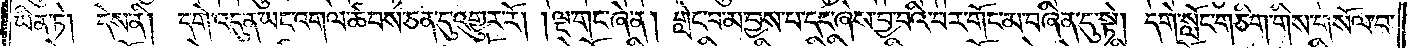ཡིན་ཏེ། དེས་ནི། དགེ་འདུན་ཡང་འགལ་ཚབས་ཅན་དུ་འགྱུར་རོ། །ལྔ་གང་ཞེ་ན། གླེང་བ་མ་བྱས་པ་དང་ཞེས་བྱ་བའི་བར་གོང་མ་བཞིན་དུ་སྟེ། དགེ་སློང་གཅིག་གིས་གསོལ་བ་
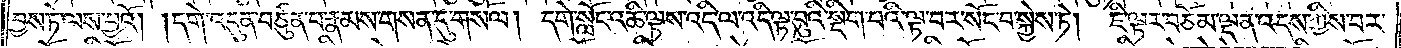བྱས་ཏེ་ལས་བྱའོ། །དགེ་འདུན་བཙུན་པ་རྣམས་གསན་དུ་གསོལ། དགེ་སློང་འཆི་ལྟས་འདི་ལ་འདི་ལྟ་བུའི་སྡིག་པའི་ལྟ་བར་སོང་བ་སྐྱེས་ཏེ། ཇི་ལྟར་བཅོམ་ལྡན་འདས་ཀྱིས་བར་
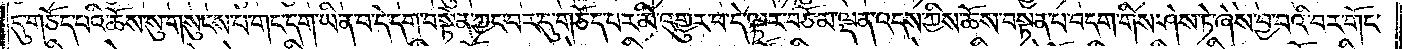དུ་གཅོད་པའི་ཆོས་སུ་གསུངས་པ་གང་དག་ཡིན་པ་དེ་དག་བསྟེན་ཀྱང་བར་དུ་གཅོད་པར་མི་འགྱུར་བ་དེ་ལྟར་བཅོམ་ལྡན་འདས་ཀྱིས་ཆོས་བསྟན་པ་བདག་གིས་ཤེས་ཏེ་ཞེས་བྱ་བའི་བར་གོང་
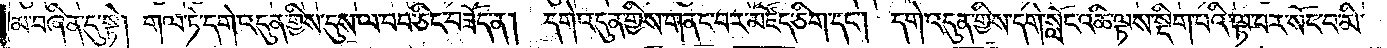མ་བཞིན་དུ་སྟེ། གལ་ཏེ་དགེ་འདུན་གྱིས་དུས་ལ་བབ་ཅིང་བཟོད་ན། དགེ་འདུན་གྱིས་གནང་བར་མཛོད་ཅིག་དང༌། དགེ་འདུན་གྱིས་དགེ་སློང་འཆི་ལྟས་སྡིག་པའི་ལྟ་བར་སོང་བ་མི་
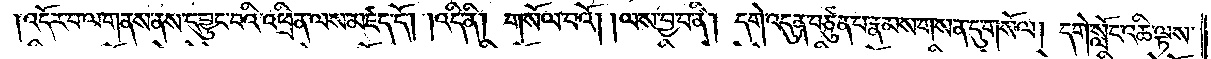འདོར་བ་ལ་གནས་ནས་དབྱུང་བའི་འཕྲིན་ལས་མཛད་དོ། །འདི་ནི། གསོལ་བའོ། །ལས་བྱ་བ་ནི། དགེ་འདུན་བཙུན་པ་རྣམས་གསན་དུ་གསོལ། དགེ་སློང་འཆི་ལྟས་
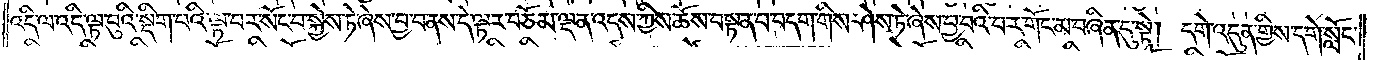འདི་ལ་འདི་ལྟ་བུའི་སྡིག་པའི་ལྟ་བར་སོང་བ་སྐྱེས་ཏེ་ཞེས་བྱ་བ་ནས་དེ་ལྟར་བཅོམ་ལྡན་འདས་ཀྱིས་ཆོས་བསྟན་པ་བདག་གིས་ཤེས་ཏེ་ཞེས་བྱ་བའི་བར་གོང་མ་བཞིན་དུ་སྟེ། དགེ་འདུན་གྱིས་དགེ་སློང་
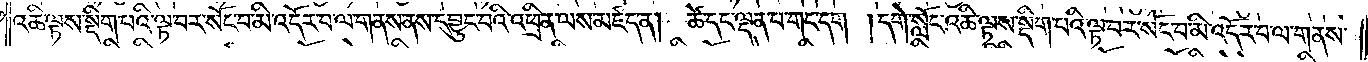འཆི་ལྟས་སྡིག་པའི་ལྟ་བར་སོང་བ་མི་འདོར་བ་ལ་གནས་ནས་དབྱུང་བའི་འཕྲིན་ལས་མཛད་ན། ཚེ་དང་ལྡན་པ་གང་དག །དགེ་སློང་འཆི་ལྟས་སྡིག་པའི་ལྟ་བར་སོང་བ་མི་འདོར་བ་ལ་གནས་
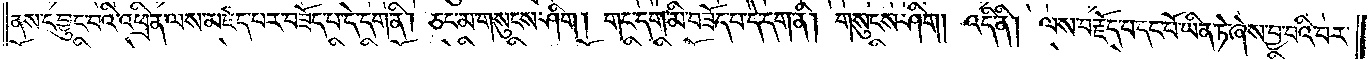ནས་དབྱུང་བའི་འཕྲིན་ལས་མཛད་པར་བཟོད་པ་དེ་དག་ནི། ཅང་མ་གསུངས་ཤིག །གང་དག་མི་བཟོད་པ་དེ་དག་ནི། གསུངས་ཤིག། འདི་ནི། ལས་བརྗོད་པ་དང་པོ་ཡིན་ཏེ་ཞེས་བྱ་བའི་བར་
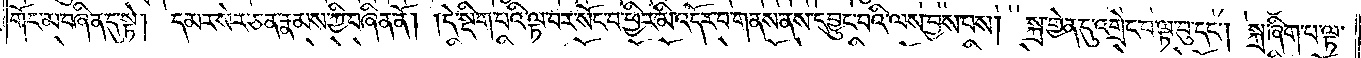གོང་མ་བཞིན་དུ་སྟེ། དམར་སེར་ཅན་རྣམས་ཀྱི་བཞིན་ནོ། །དེ་སྡིག་པའི་ལྟ་བར་སོང་བ་ཕྱིར་མི་འདོར་བ་གནས་ནས་དབྱུང་བའི་ལས་བྱས་པས། སྐྲ་གྱེན་དུ་འགྲེང་བ་ལྟ་བུ་དང༌། སྐྲ་ཞིག་པ་ལྟ་
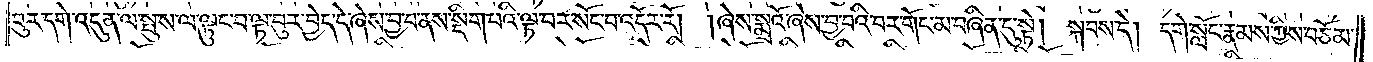བུར་དགེ་འདུན་ལ་སྤུས་ལ་ལྟུང་བ་ལྟ་བུར་བྱེད་དེ་ཞེས་བྱ་བ་ནས་སྡིག་པའི་ལྟ་བར་སོང་བ་འདོར་རོ། །ཞེས་སྨྲའོ་ཞེས་བྱ་བའི་བར་གོང་མ་བཞིན་དུ་སྟེ། སྐབས་དེ། དགེ་སློང་རྣམས་ཀྱིས་བཅོམ་
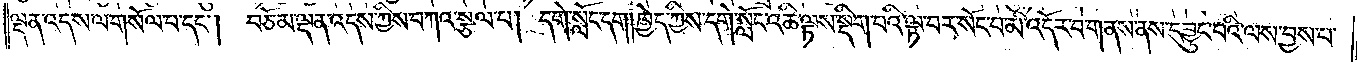ལྡན་འདས་ལ་གསོལ་པ་དང༌། བཅོམ་ལྡན་འདས་ཀྱིས་བཀའ་སྩལ་པ། དགེ་སློང་དག། ཁྱེད་ཀྱིས་དགེ་སློང་འཆི་ལྟས་སྡིག་པའི་ལྟ་བ་སོང་བ་མི་འདོར་བ་གནས་ནས་དབྱུང་བའི་ལས་བྱས་པ་
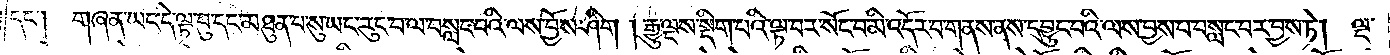དང༌། གཞན་ཡང་དེ་ལྟ་བུ་དང་མཐུན་པ་སུ་ཡང་རུང་བ་ལ་བསླང་བའི་ལས་བྱོས་ཤིག །རྒྱུ་ལྔས་སྡིག་པའི་ལྟ་བར་སོང་བ་མི་འདོར་བ་གནས་ནས་དབྱུང་བའི་ལས་བྱས་པ་བསླང་བར་བྱས་ཏེ། ལྔ་
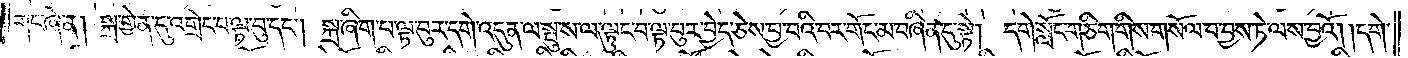གང་ཞེ་ན། སྐྲ་གྱེན་དུ་འགྲེང་བ་ལྟ་བུ་དང༌། སྐྲ་ཞིག་པ་ལྟ་བུར་དགེ་འདུན་ལ་སྤུས་ལ་ལྟུང་བ་ལྟ་བུར་བྱེད་ཅེས་བྱ་བའི་བར་གོང་མ་བཞིན་དུ་སྟེ། དགེ་སློང་གཅིག་གིས་གསོལ་བ་བྱས་ཏེ་ལས་བྱའོ། །དགེ་
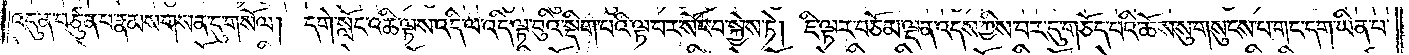འདུན་བཙུན་པ་རྣམས་གསན་དུ་གསོལ། དགེ་སློང་འཆི་ལྟས་འདི་ལ་འདི་ལྟ་བུའི་སྡིག་པའི་ལྟ་བར་སོང་བ་སྐྱེས་ཏེ། ཇི་ལྟར་བཅོམ་ལྡན་འདས་ཀྱིས་བར་དུ་གཅོད་པའི་ཆོས་སུ་གསུངས་པ་གང་དག་ཡིན་པ་
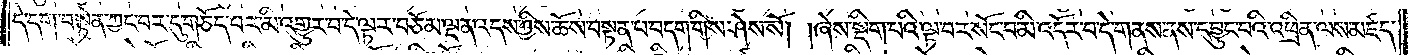དེ་དག་བསྟེན་ཀྱང་བར་དུ་གཅོད་པར་མི་འགྱུར་བ་དེ་ལྟར་བཅོམ་ལྡན་འདས་ཀྱིས་ཆོས་བསྟན་པ་བདག་གིས་ཤེས་སོ། །ཞེས་སྡིག་པའི་ལྟ་བར་སོང་བ་མི་འདོར་བ་དེ་གནས་ནས་དབྱུང་བའི་འཕྲིན་ལས་མཛད་
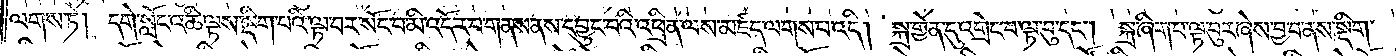ལགས་ཏེ། དགེ་སློང་འཆི་ལྟས་སྡིག་པའི་ལྟ་བར་སོང་བ་མི་འདོར་བ་གནས་ནས་དབྱུང་བའི་འཕྲིན་ལས་མཛད་ལགས་པ་འདི། སྐྲ་གྱེན་དུ་འགྲེང་བ་ལྟ་བུ་དང༌། སྐྲ་ཞིག་པ་ལྟ་བུར་ཞེས་བྱ་བ་ནས་སྡིག་
